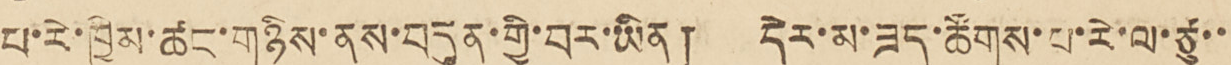པ་རེ་ཁྱིམ་ཚང་གཉིས་ནས་བདུན་གྱི་བར་ཡིན། དེར་མ་ཟད་ཚོགས་པ་རེ་ལ་ཙུ་་
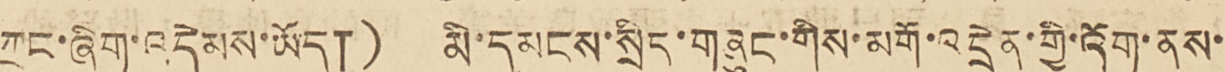ཀྲང་ཞིག་འདེམས་ཡོད།) མི་དམངས་སྲིད་གཞུང་གིས་མགོ་འདྲེན་གྱི་འོག་ནས་
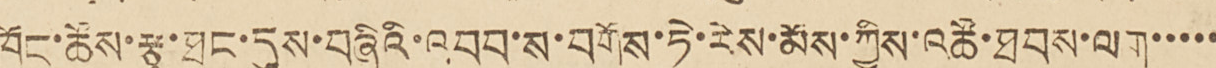ཁོང་ཚོས་རྩྭ་ཐང་དུས་བཞིའི་འབབ་ས་བགོས་ཏེ་རེས་མོས་ཀྱིས་འཚོ་ཐབས་ལག་་་་་
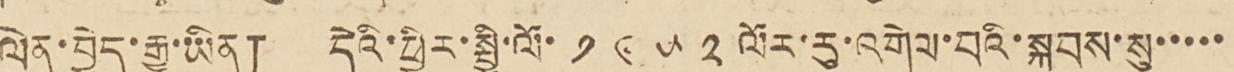ལེན་བྱེད་རྒྱུ་ཡིན། དེའི་ཕྱིར་སྤྱི་ལོ་ ༡ ༩ ༥ ༢ ལོར་རུ་འགེལ་བའི་སྐབས་སུ་་་་་
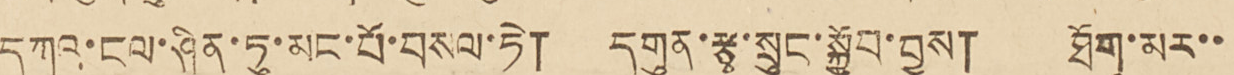དཀའ་ངལ་ཤིན་ཏུ་མང་པོ་བསལ་ཏེ། དགུན་རྩྭ་སྲུང་སྐྱོབ་བྱས། ཐོག་མར་་
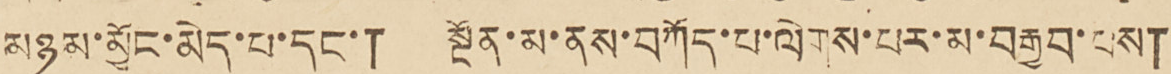མཉམ་མྱོང་མེད་པ་དང་། སྔོན་མ་ནས་བཀོད་པ་ལེགས་པར་མ་བརྒྱབ་པས།
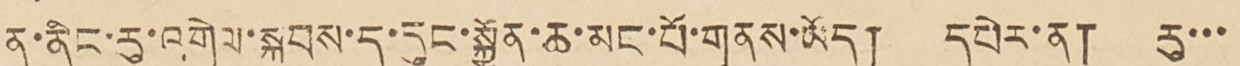ན་ནིང་རུ་འགེལ་སྐབས་ད་དུང་སྐྱོན་ཆ་མང་པོ་གནས་ཡོད། དཔེར་ན། རུ་་་
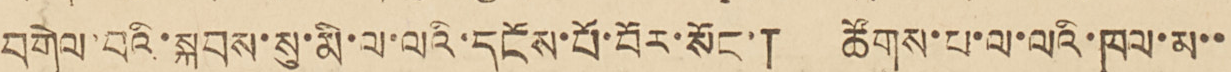བགེལ་བའི་སྐབས་སུ་མི་ལ་ལའི་དངོས་པོ་བོར་སོང་། ཚོགས་པ་ལ་ལའི་ཁལ་མ་་
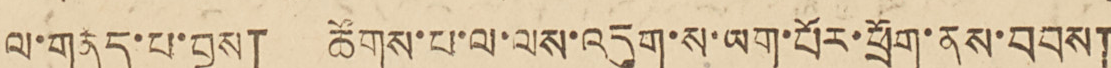ལ་གནོད་པ་བྱས། ཚོགས་པ་ལ་ལས་འདུག་ས་ཡག་པོར་ཕྲོག་ནས་བབས།
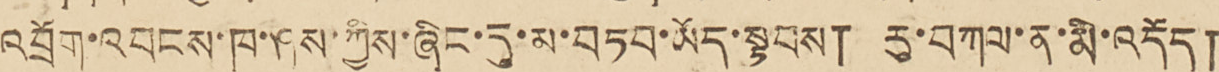འབྲོག་འབངས་ཁ་ཤས་ཀྱིས་ཞིང་དུ་མ་བཏབ་ཡོད་སྟབས། རུ་བཀལ་ན་མི་འདོད།
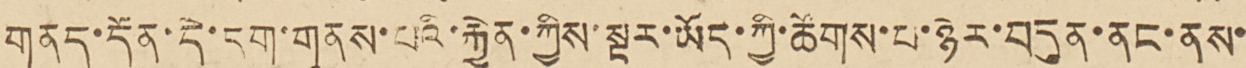གནད་དོན་དེ་དག་གནས་པའི་རྐྱེན་ཀྱིས་སྔར་ཡོད་ཀྱི་ཚོགས་པ་ཉེར་བདུན་ནང་ནས་
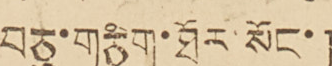བཅུ་གཅིག་ཐོར་སོང་།
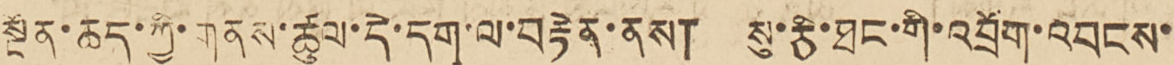སྔོན་ཆད་ཀྱི་གནས་ཚུལ་དེ་དག་ལ་བརྟེན་ནས། སུ་ཅི་ཐང་གི་འབྲོག་འབངས་
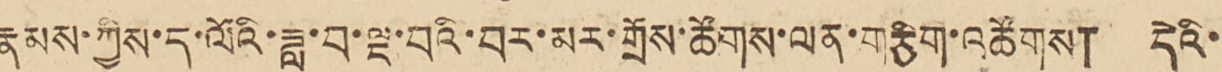རྣམས་ཀྱིས་ད་ལོའི་ཟླ་བ་ལྔ་བའི་བར་མར་གྲོས་ཚོགས་ལན་གཅིག་འཚོགས། དེའི་
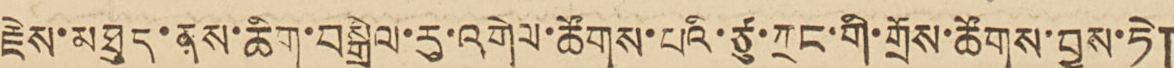རྗེས་མཐུད་ནས་ཆིག་བསྒྲེལ་རུ་འགེལ་ཚོགས་པའི་ཙུ་ཀྲང་གི་གྲོས་ཚོགས་བྱས་ཏེ།
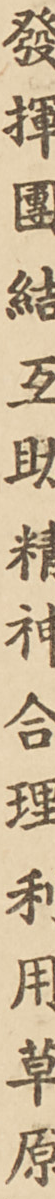發揮團結互助精神合理利用草原
